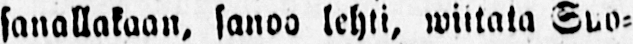sanallakaan, sanoo lehti, wiitata Suo-
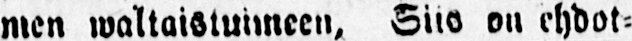men waltaistuimeen, Siis on ehdot-
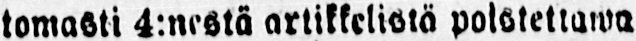tomasti 4:nestä artikkelista polstettawa
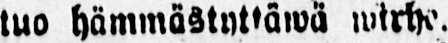tuo hämmästyttäwä wirhe.
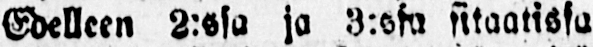Edelleen 3:ssa ja 3:ssa sitaatissa
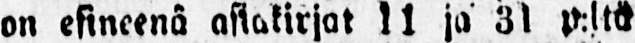on esineenä asiakirjot 11 ja 3l p:ltk
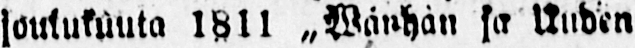joulukuuta 1811 „ Wänhän ja Uuden
